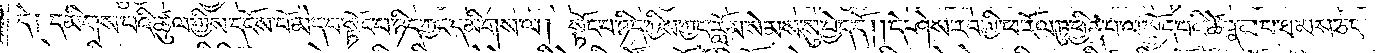དེ༑ དམིགས་པའི་ཚུལ་གྱིས་དངོས་པོ་མེད་པ་སྟོང་པ་ཉིད་ཀྱང་དམིགས་ལ། སྟོང་པ་ཉིད་ཀྱིས་ཀྱང་རློམ་སེམས་སུ་བྱེད་དོ། །དེ་ཤེས་རབ་ཀྱི་ཕ་རོལ་ཏུ་ཕྱིན་པ་ལ་སྤྱོད་པའི་ཚེ་རྣམ་པ་ཐམས་ཅད་
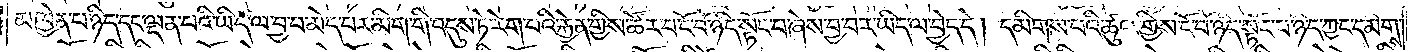མཁྱེན་པ་ཉིད་དང་ལྡན་པའི་ཡིད་ལ་བྱ་བ་མེད་པར་མིག་གི་འདུས་ཏེ་རེག་པའི་རྐྱེན་གྱིས་ཚོར་བ་ངོ་བོ་ཉིད་སྟོང་པ་ཞེས་བྱ་བར་ཡིད་ལ་བྱེད་དེ། དམིགས་པའི་ཚུལ་གྱིས་ངོ་བོ་ཉིད་སྟོང་པ་ཉིད་ཀྱང་དམིགས་
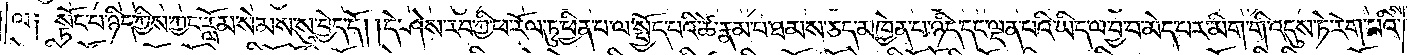ལ༑ སྟོང་པ་ཉིད་ཀྱིས་ཀྱང་རློམ་སེམས་སུ་བྱེད་དོ། །དེ་ཤེས་རབ་ཀྱི་ཕ་རོལ་ཏུ་ཕྱིན་པ་ལ་སྤྱོད་པའི་ཚེ་རྣམ་པ་ཐམས་ཅད་མཁྱེན་པ་ཉིད་དང་ལྡན་པའི་ཡིད་ལ་བྱ་བ་མེད་པར་མིག་གི་འདུས་ཏེ་རེག་པའི་
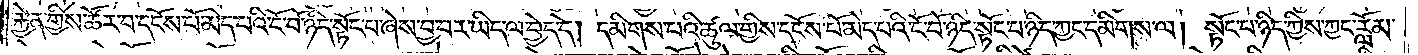རྐྱེན་གྱིས་ཚོར་བ་དངོས་པོ་མེད་པའི་ངོ་བོ་ཉིད་སྟོང་པ་ཞེས་བྱ་བར་ཡིད་ལ་བྱེད་དེ། དམིགས་པའི་ཚུལ་གྱིས་དངོས་པོ་མེད་པའི་ངོ་བོ་ཉིད་སྟོང་པ་ཉིད་ཀྱང་དམིགས་ལ། སྟོང་པ་ཉིད་ཀྱིས་ཀྱང་རློམ་
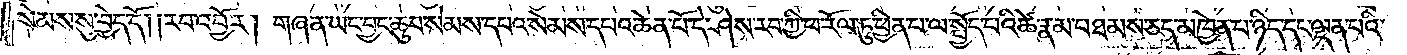སེམས་སུ་བྱེད་དོ། །རབ་འབྱོར། གཞན་ཡང་བྱང་ཆུབ་སེམས་དཔའ་སེམས་དཔའ་ཆེན་པོ་དེ་ཤེས་རབ་ཀྱི་ཕ་རོལ་ཏུ་ཕྱིན་པ་ལ་སྤྱོད་པའི་ཚེ་རྣམ་པ་ཐམས་ཅད་མཁྱེན་པ་ཉིད་དང་ལྡན་པའི་
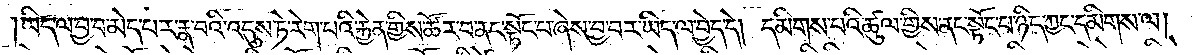ཡིད་ལ་བྱ་བ་མེད་པར་རྣ་བའི་འདུས་ཏེ་རེག་པའི་རྐྱེན་གྱིས་ཚོར་བ་ནང་སྟོང་པ་ཞེས་བྱ་བར་ཡིད་ལ་བྱེད་དེ། དམིགས་པའི་ཚུལ་གྱིས་ནང་སྟོང་པ་ཉིད་ཀྱང་དམིགས་ལ།
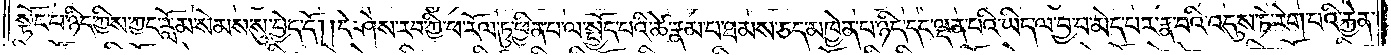སྟོང་པ་ཉིད་ཀྱིས་ཀྱང་རློམ་སེམས་སུ་བྱེད་དོ། །དེ་ཤེས་རབ་ཀྱི་ཕ་རོལ་ཏུ་ཕྱིན་པ་ལ་སྤྱོད་པའི་ཚེ་རྣམ་པ་ཐམས་ཅད་མཁྱེན་པ་ཉིད་དང་ལྡན་པའི་ཡིད་ལ་བྱ་བ་མེད་པར་རྣ་བའི་འདུས་ཏེ་རེག་པའི་རྐྱེན་
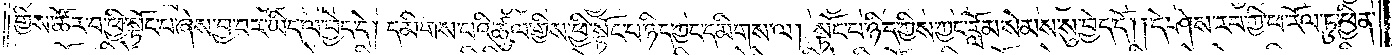གྱིས་ཚོར་བ་ཕྱི་སྟོང་པ་ཞེས་བྱ་བར་ཡིད་ལ་བྱེད་དེ། དམིགས་པའི་ཚུལ་གྱིས་ཕྱི་སྟོང་པ་ཉིད་ཀྱང་དམིགས་ལ། སྟོང་པ་ཉིད་ཀྱིས་ཀྱང་རློམ་སེམས་སུ་བྱེད་དོ། །དེ་ཤེས་རབ་ཀྱི་ཕ་རོལ་ཏུ་ཕྱིན་
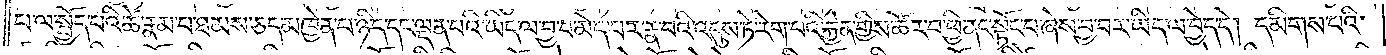པ་ལ་སྤྱོད་པའི་ཚེ་རྣམ་པ་ཐམས་ཅད་མཁྱེན་པ་ཉིད་དང་ལྡན་པའི་ཡིད་ལ་བྱ་བ་མེད་པར་རྣ་བའི་འདུས་ཏེ་རེག་པའི་རྐྱེན་གྱིས་ཚོར་བ་ཕྱི་ནང་སྟོང་པ་ཞེས་བྱ་བར་ཡིད་ལ་བྱེད་དེ། དམིགས་པའི་
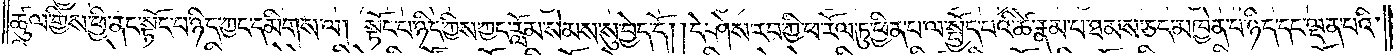ཚུལ་གྱིས་ཕྱི་ནང་སྟོང་པ་ཉིད་ཀྱང་དམིགས་ལ། སྟོང་པ་ཉིད་ཀྱིས་ཀྱང་རློམ་སེམས་སུ་བྱེད་དོ། །དེ་ཤེས་རབ་ཀྱི་ཕ་རོལ་ཏུ་ཕྱིན་པ་ལ་སྤྱོད་པའི་ཚེ་རྣམ་པ་ཐམས་ཅད་མཁྱེན་པ་ཉིད་དང་ལྡན་པའི་
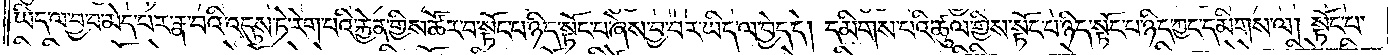ཡིད་ལ་བྱ་བ་མེད་པར་རྣ་བའི་འདུས་ཏེ་རེག་པའི་རྐྱེན་གྱིས་ཚོར་བ་སྟོང་པ་ཉིད་སྟོང་པ་ཞེས་བྱ་བར་ཡིད་ལ་བྱེད་དེ། དམིགས་པའི་ཚུལ་གྱིས་སྟོང་པ་ཉིད་སྟོང་པ་ཉིད་ཀྱང་དམིགས་ལ། སྟོང་པ་
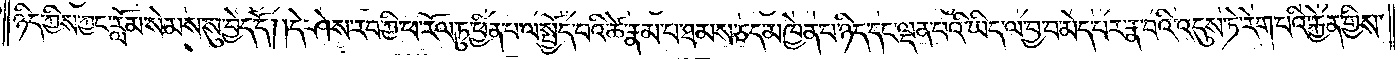ཉིད་ཀྱིས་ཀྱང་རློམ་སེམས་སུ་བྱེད་དོ། །དེ་ཤེས་རབ་ཀྱི་ཕ་རོལ་ཏུ་ཕྱིན་པ་ལ་སྤྱོད་པའི་ཚེ་རྣམ་པ་ཐམས་ཅད་མཁྱེན་པ་ཉིད་དང་ལྡན་པའི་ཡིད་ལ་བྱ་བ་མེད་པར་རྣ་བའི་འདུས་ཏེ་རེག་པའི་རྐྱེན་གྱིས་
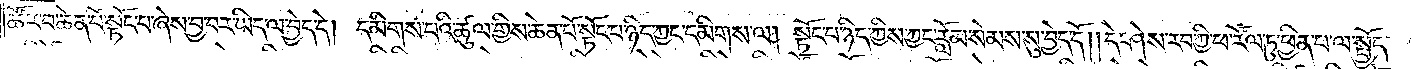ཚོར་བ་ཆེན་པོ་སྟོང་པ་ཞེས་བྱ་བར་ཡིད་ལ་བྱེད་དེ། དམིགས་པའི་ཚུལ་གྱིས་ཆེན་པོ་སྟོང་པ་ཉིད་ཀྱང་དམིགས་ལ། སྟོང་པ་ཉིད་ཀྱིས་ཀྱང་རློམ་སེམས་སུ་བྱེད་དོ། །དེ་ཤེས་རབ་ཀྱི་ཕ་རོལ་ཏུ་ཕྱིན་པ་ལ་སྤྱོད་
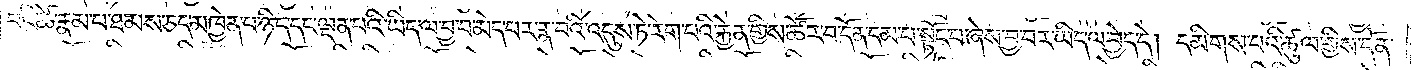པའི་ཚེ་རྣམ་པ་ཐམས་ཅད་མཁྱེན་པ་ཉིད་དང་ལྡན་པའི་ཡིད་ལ་བྱ་བ་མེད་པར་རྣ་བའི་འདུས་ཏེ་རེག་པའི་རྐྱེན་གྱིས་ཚོར་བ་དོན་དམ་པ་སྟོང་པ་ཞེས་བྱ་བར་ཡིད་ལ་བྱེད་དེ། དམིགས་པའི་ཚུལ་གྱིས་དོན་
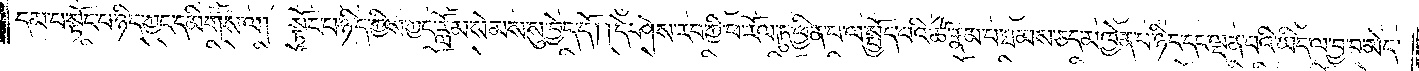དམ་པ་སྟོང་པ་ཉིད་ཀྱང་དམིགས་ལ། སྟོང་པ་ཉིད་ཀྱིས་ཀྱང་རློམ་སེམས་སུ་བྱེད་དོ། །དེ་ཤེས་རབ་ཀྱི་ཕ་རོལ་ཏུ་ཕྱིན་པ་ལ་སྤྱོད་པའི་ཚེ་རྣམ་པ་ཐམས་ཅད་མཁྱེན་པ་ཉིད་དང་ལྡན་པའི་ཡིད་ལ་བྱ་བ་མེད་
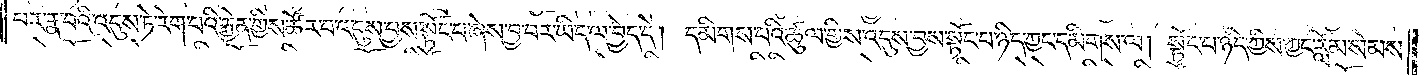པར་རྣ་བའི་འདུས་ཏེ་རེག་པའི་རྐྱེན་གྱིས་ཚོར་བ་འདུས་བྱས་སྟོང་པ་ཞེས་བྱ་བར་ཡིད་ལ་བྱེད་དེ། དམིགས་པའི་ཚུལ་གྱིས་འདུས་བྱས་སྟོང་པ་ཉིད་ཀྱང་དམིགས་ལ། སྟོང་པ་ཉིད་ཀྱིས་ཀྱང་རློམ་སེམས་
